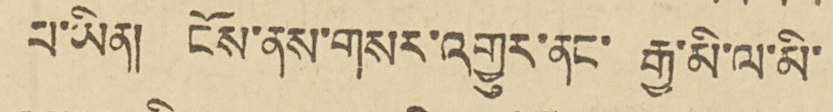པ་ཡིན། །ངོས་ནས་གསར་འགྱུར་ནང་རྒྱ་མི་ལ་མི་
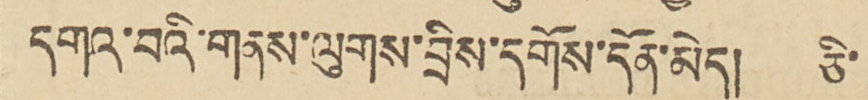དགའ་བའི་གནས་ལུགས་བྲིས་དགོས་དོན་མེད། ཅི་
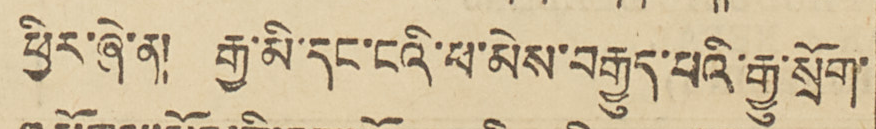ཕྱིར་ཞེ་ན། རྒྱ་མི་དང་ངའི་ཕ་མེས་བརྒྱུད་པའི་རྒྱུ་སྲོག་
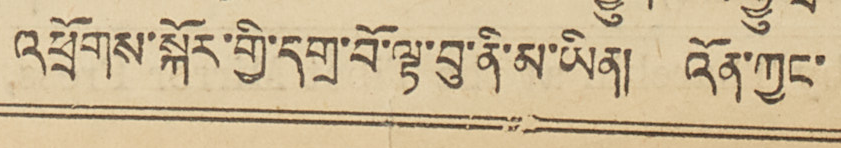འཕྲོགས་སྐོར་གྱི་དགྲ་བོ་ལྟ་བུ་ནི་མ་ཡིན། འོན་ཀྱང་
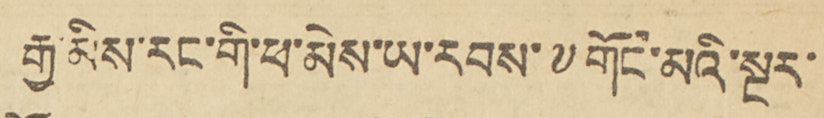རྒྱ་མིས་རང་གི་ཕ་མེས་ཡ་རབས་༸གོང་མའི་སྔར་
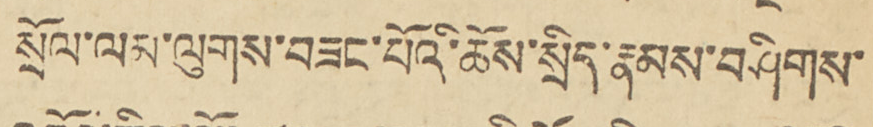སྲོལ་ལམ་ལུགས་བཟང་པོའི་ཆོས་སྲིད་རྣམས་བཤིགས་
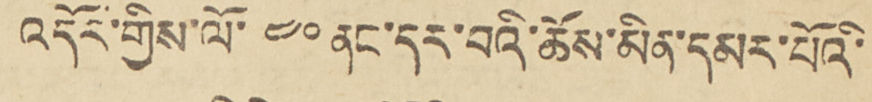འདོར་གྱིས་ལོ་ ༤༠ ནང་དར་བའི་ཆོས་མིན་དམར་པོའི་
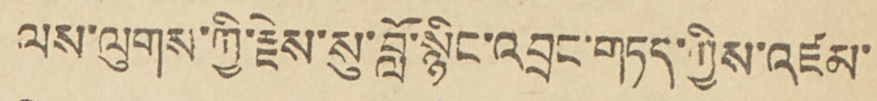ལས་ལུགས་ཀྱི་རྗེས་སུ་བློ་སྙིང་འབྲང་གཏད་ཀྱིས་འཛམ་
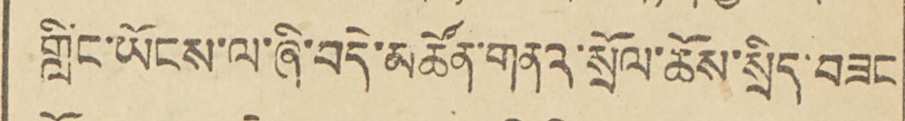གླིང་ཡོངས་ལ་ཞི་བདེ་མཚོན་གནའ་སྲོལ་ཆོས་སྲིད་བཟང
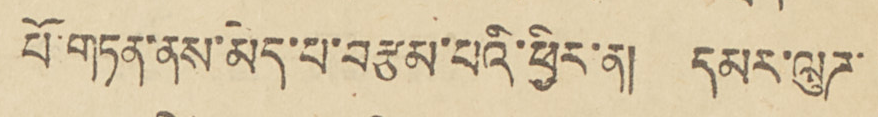པོ་གཏན་ནས་མེད་པ་བརྩམ་པའི་ཕྱིར་ན། དམར་ལུཌ་
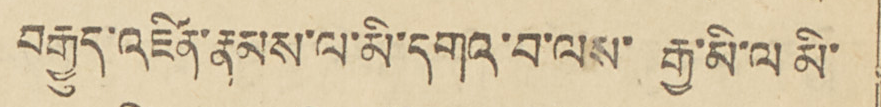བརྒྱུད་འཛིན་རྣམས་ལ་མི་དགའ་བ་ལས་རྒྱ་མི་ལ མི་
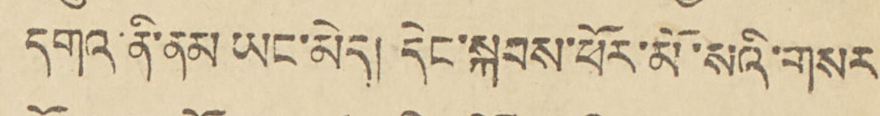དགའ་ནི་ནམ་ཡང་མེད། དེང་སྐབས་ཕོར་མོའི་གསར་
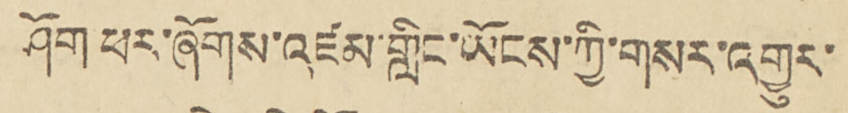ཤོག་ཕར་ཞོགས་འཛམ་གླིང་ཡོངས་ཀྱི་གསར་འགྱུར་
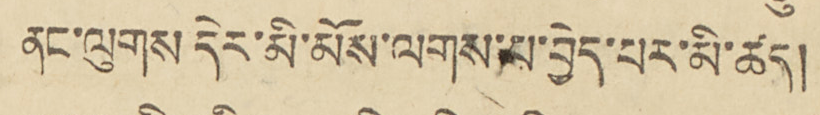ནང་ལུགས དེར་མི་མོས་ལགས་པ་བྱེད་པར་མི་ཚད།
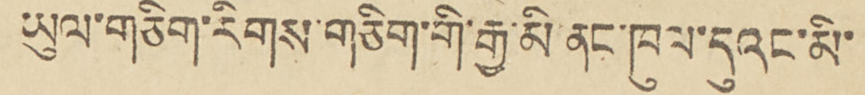ཡུལ་གཅིག་རིགས་གཅིག་གི་རྒྱ་མི ནང་ཁུལ་དུའང་མི་
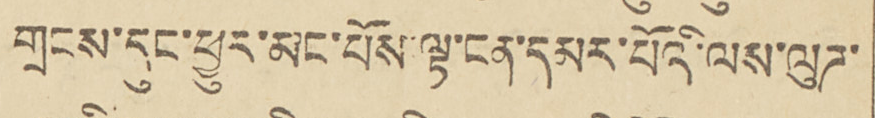གྲངས་དུང་ཕྱུར་མང་པོས་ལྟ་ངན་དམར་པོའི་ལས་ལུཌ་
